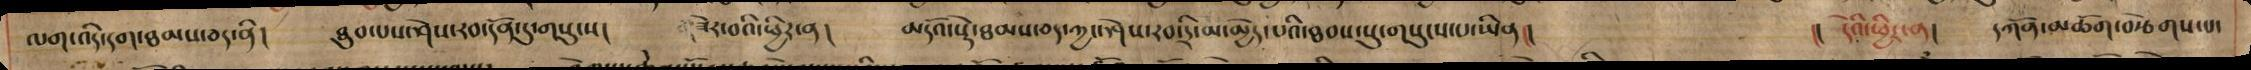ལག་འདི་དག་ཐམས་ཅད་ནི། ཐུབ་པས་ཤེས་རབ་དོན་དུ་གསུངས། ཟེར་བའི་ཕྱིར་ན། མདོའ་སྡེ་ཐམས་ཅད་ཀྱང་ཤེས་རབ་དྲི་མ་མྱེད་པའི་ཐབས་སསུ་གསུངས་པ་ཡིན།། །། དེའི་ཕྱིར་ན། དཀོན་མཆོག་བརྩེགས་པ་
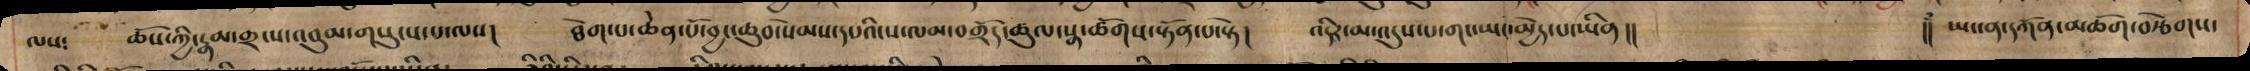ལས: ཆོས་ཀྱི་རྣམ་གྲངས་འབུམ་གསུངས་པ་ལས། ཐེག་པ་ཆེན་པོ་བྱང་ཆུབ་སེམས་དཔའི་ས་ལམ་བགྲོད་ཚུལ་སྣ་ཚོགས་སྟོན་པ་སྟེ། འདིར་མ་འདུས་པ་གང་ཡང་མྱེད་པ་ཡིན །།  །། ཡང་ན་དཀོན་མཆོག་བརྩེགས་
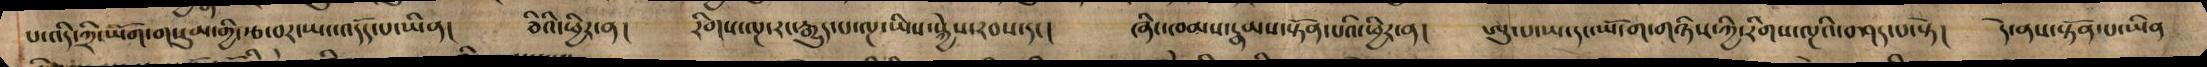པ་འདི་ཀྲི་ཡོག་གསུམ་གྱི་རྩ་བར་ཡང་འདོད་པ་ཡིན། ཅིའི་ཕྱིར་ན། རིགས་ལྔ་རང་རྒྱུད་པ་ལྔ་ཡིས་སྐྱེས་རབས་དང། ཞིང་ཁམས་རྣམས་སྟོན་པའི་ཕྱི་ན། ཨུ་པ་ཡ་དང་ཡོ་ག་གཉིས་ཀྱི་རིགས་ལྔའི་བཤད་པ་སྟེ། དེ་ནས་སྟོན་པ་ཡིན
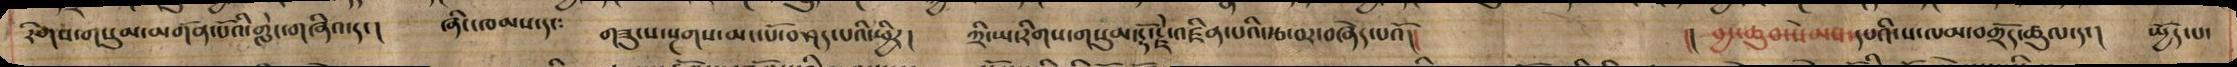རིགས་གསུམ་མགོན་པོའི་གླེང་གཞིའ་དང། ཞིང་ཁམས་དང: གཟུངས་སྔགས་མང་པོ་བཤད་པའི་ཕྱིར། ཀྲི་ཡ་རིགས་གསུམ་རྡོ་རྗེ་འཛིན་པའི་རྩ་བར་བཞེད་པའོ།། །། བྱང་ཆུབ་སེམས་དཔའི་ས་ལམ་བགྲོད་ཚུལ་དང། སྤྱོད་པ་
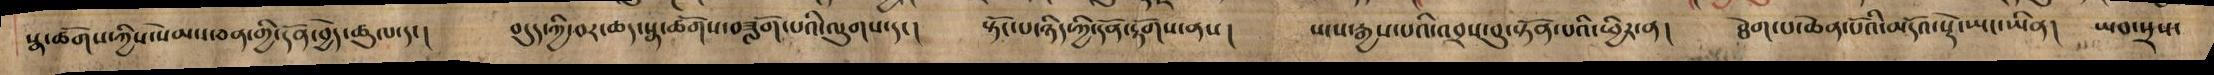སྣ་ཚོགས་ཀྱིས་སེམས་ཅན་གྱི་དོན་བྱེད་ཚུལ་དང། བདུད་ཀྱི་བར་ཆད་སྣ་ཚོགས་བཟློག་པའི་ལུགས་དང། སྟོང་པ་ཉིད་ཀྱི་དོན་རྟོགས་ནས། སངས་རྒྱས་པའི་འབྲས་བུ་སྟོན་པའི་ཕྱིར་ན། ཐེག་པ་ཆེན་པོའི་མདོ་སྟེ་ཡང་ཡིན། ཡབ་སྲས་
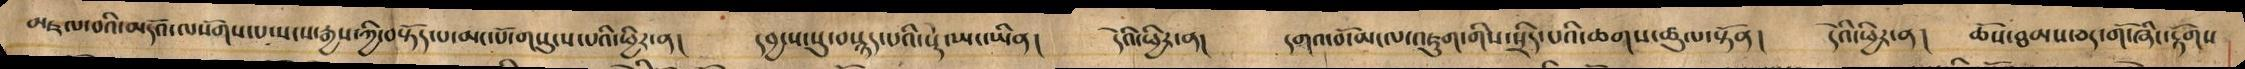མཇལ་བའི་མདོའ་ལ་སོགས་པ་སངས་རྒྱས་ཀྱི་བསྟོད་པ་མང་པོ་གསུངས་པའི་ཕྱིར་ན། དབྱངས་སུ་བསྙད་པའི་སྡེ་ཡང་ཡིན། དེའི་ཕྱིར་ན། དགའ་བོ་མངལ་འཇུག་གིས་སྲིད་པའི་ཆགས་ཚུལ་སྟོན། དེའི་ཕྱིར་ན། ཆོས་ཐམས་ཅད་གོ་ཞིང་རྟོགས
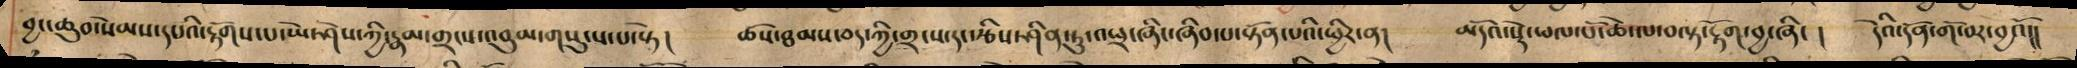བྱང་ཆུབ་སེམས་དཔའི་རྟོགས་པ་ཡེ་ཤེས་ཀྱི་རྣམ་གྲངས་འབུམ་གསུངས་པ་སྟེ། ཆོས་ཐམས་ཅད་ཀྱི་གྲངས་དང་རྩིས་ཤིན་ཏུ་འཕྲ་ཞིང་ཞིབ་པ་སྟོན་པའི་ཕྱིར་ན། མདོའ་སྡེ་ཕལ་པོ་ཆེ་ལ་བལྟ་རྟོག་བྱ་ཞིང ། དེའི་དོན་གོ་བར་བྱའོ།།
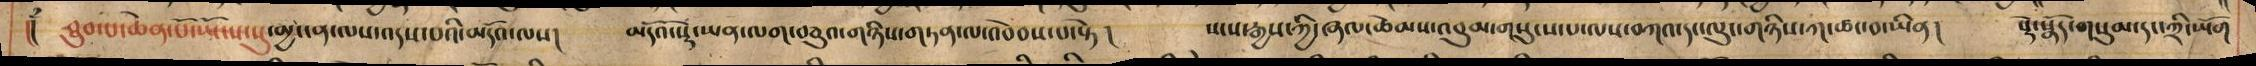།། ཐུབ་པ་ཆེན་པོ་ཡོངས་སུ་མྱ་ངན་ལས་འདས་པའི་མདོའ་ལས། མདོའ་སྡེ་ཡན་ལག་བཅུའ་གཉིས་གཏན་ལ་འབེབས་པ་སྟེ ། སངས་རྒྱས་ཀྱི་ཞལ་ཆེམས་འབུམ་གསུངས་པ་ལས་བཀའ་དང་ལུང་གཉིས་ཀ་ཚང་བ་ཡིན། སྡེ་སྣོད་གསུམ་དང་ཀྲི་ཡོག
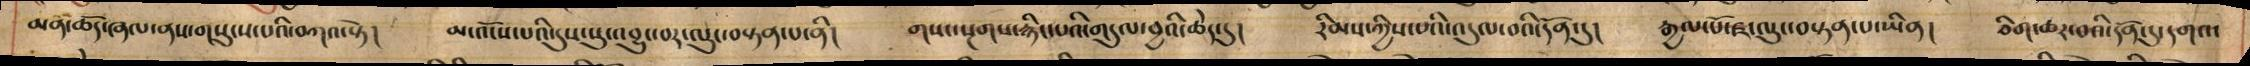མན་ཆོད་ཞལ་ནས་གསུངས་པའི་བཀའ་སྟེ། མ་འོངས་པའི་དུས་སུ་འབྱུང་བར་ལུང་བསྟན་པ་ནི། གསང་སྔགས་རྙིང་པའི་གདུལ་བྱའི་ཆེད་དུ། རིམས་ཀྱིས་པའི་འདུལ་བའི་དོན་དུ། རྒྱལ་པོ་ཛ་ལུང་བསྟན་པ་ཡིན། ཅིག་ཆར་བའི་དོན་དུ་དགའ་
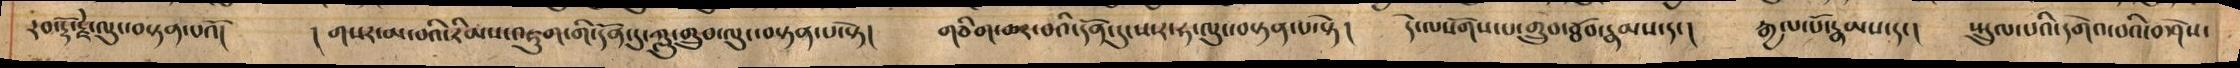རབ་རྡོ་རྗེ་ལུང་བསྟན་པའོ། ། གསར་མ་བའི་རིམས་འཇུག་གི་དོན་དུ་ཀླུ་གྲུབ་ལུང་བསྟན་པ་སྟེ། གཅིག་ཆར་བའི་དོན་དུ་ས་ར་ཧ་ལུང་བསྟན་པ་སྟེ། དེ་ལསོགས་པ་གྲུབ་ཐོབ་རྣམས་དང། རྒྱལ་པོ་རྣམས་དང། སྤྲུལ་པའི་དགེའ་བའི་བཤེས་
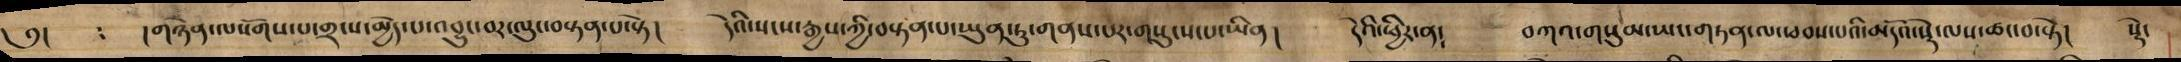༅། : །གཉེན་ལསོགས་པ་གྲངས་མྱེད་པ་འབྱུང་བར་ལུང་བསྟན་པ་སྟེ། དེའི་སངས་རྒྱས་ཀྱི་བསྟན་པ་ཡུན་ཏུ་གནས་པར་གསུངས་པ་ཡིན། དེའི་ཕྱིར་ན། བཀའ་གསུམ་ཡང་གཏན་ལ་ཕབས་པའི་མདོའ་སྡེ་ལས་ཚང་བ་སྟེ། སྡེ་
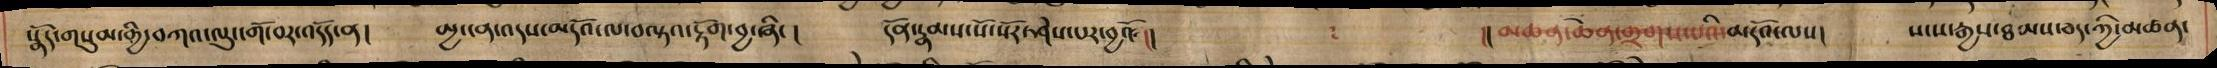སྣོད་གསུམ་གྱི་བཀའ་ལུང་གོ་བར་འདོད་ན། མྱ་ངན་འདས་མདོའ་ལ་བལྟའ་རྟོག་བྱ་ཞིང ། དོན་རྣམས་སོ་སོར་ཤེས་པར་བྱའོ །། །། མཆན་ཆེན་གྲགས་པའི་མདོའ་ལས། སངས་རྒྱས་ཐམས་ཅད་ཀྱི་མཚན་
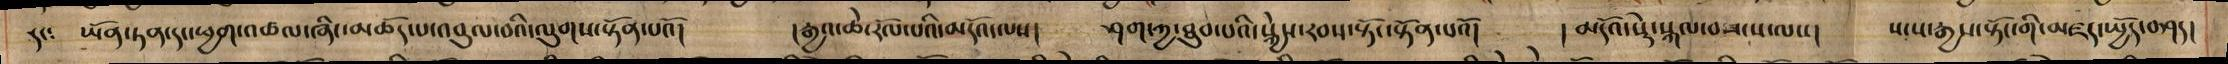རང: ཡོན་ཏན་དང་ཕྱག་འཚལ་ཞིང་མཆོད་པ་འབུལ་བའི་ལུགས་སྟོན་པའོ། །རྒྱའ་ཆེ་རོལ་པའི་མདོའ་ལས། ཤག་ཀྱ་ཐུབ་པའི་སྐྱེས་རབས་སྟོང་སྟོན་པའོ། ། མདོའ་སྡེ་སྐལ་བཟངས་ལས། སངས་རྒྱས་སྟོང་གི་མཛད་སྤྱོད་བཤད།
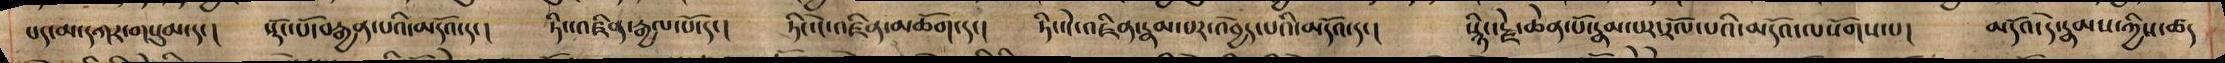པད་མ་དཀར་གསུམ་དང། སྡོང་པོ་བརྒྱན་པའི་མདོའ་དང། ཏིང་ངེ་འཛིན་རྒྱལ་པོ་དང། ཏིང་ངེ་འཛིན་མཆོག་དང། ཏིང་ངེ་འཛིན་རྣམ་པར་འབྱེད་པའི་མདོའ་དང། སྙིང་རྗེ་ཆེན་པོ་རྣམ་པར་རོལ་པའི་མདོའ་ལསོགས་པ། མདོའ་དེ་རྣམས་ཀྱིས་ཚད
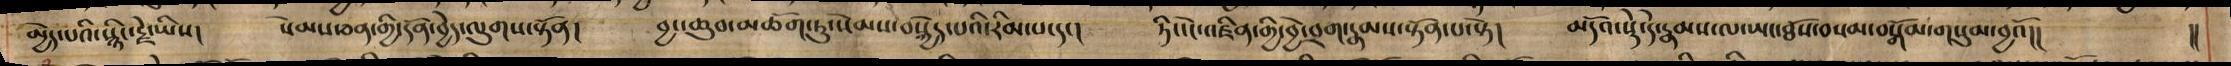མྱེད་པའི་སྣིང་རྗེ་ཡིས། སེམས་ཅན་གྱི་དོན་བྱེད་ལུགས་སྟོན། བྱང་ཆུབ་མཆོག་ཏུ་སེམས་བསྐྱེད་པའི་རིམ་པ་དང། ཏིང་ངེ་འཛིན་གྱི་བྱེ་བྲག་རྣམས་སྟོན་པ་སྟེ། མདོའ་སྡེ་དེ་རྣམས་ལ་ཡང་ཐོས་བསམ་བསྒོམ་གསུམ་བྱའོ།། །།
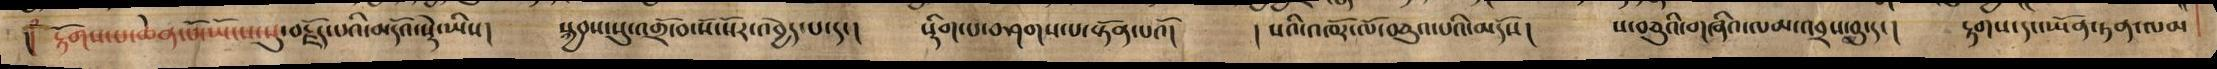།། རྟོགས་པ་ཆེན་པོ་ཡོངས་སུ་བརྗོད་པའི་མདོའ་སྡེ་ཡིས། སྐྱབས་སུ་འགྲོ་བ་སོ་སོར་འབྱེད་པ་དང། སྡིག་པ་བཤགས་པ་སྟོན་པའོ། ། སའི་འཁོར་ལོ་བཅུའ་པའི་མདོས། ས་བཅུའི་གཞིའ་ལམ་འབྲས་བུ་དང། རྟགས་དང་ཡོན་ཏན་ལམ
